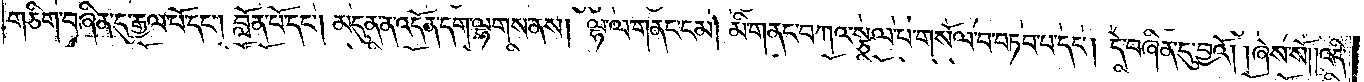གཅིག་བཞིན་དུ་རྒྱལ་པོ་དང༌། བློན་པོ་དང༌། མདུན་ན་འདོན་དག་ལྷགས་ནས། ལྷ་ལ་གནང་ངམ། མི་གནང་བཀའ་སྩལ་པ་གསོལ་བ་བཏབ་པ་དང༌། དེ་བཞིན་དུ་བྱའོ། །ཞེས་སོ། །འདི་
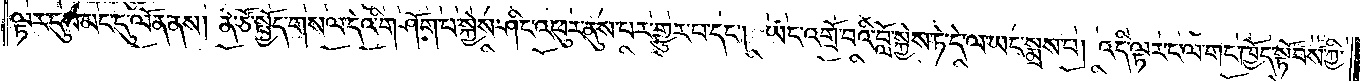ལྟར་དུས་མང་དུ་ལོན་ནས། ནེ་ཙོ་སྤྱོད་གསལ་དེའི་གཤོག་པ་སྐྱེས་ཤིང་འཕུར་ནུས་པར་གྱུར་པ་དང༌། ཡང་འགྲོ་བའི་བློ་སྐྱེས་ཏེ་དེ་ལ་ཡང་སྨྲས་པ། འདི་ལྟར་ང་ལ་གང་ཁྱོད་སྟོབས་ཀྱི་
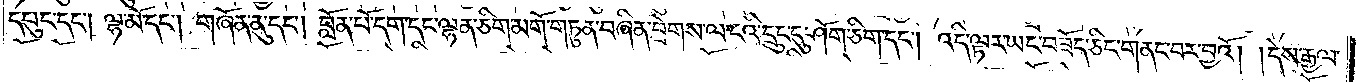དཔུང་དང༌། ལྷ་མོ་དང༌། གཞོན་ནུ་དང༌། བློན་པོ་དག་དང་ལྷན་ཅིག་མགོ་གཏུན་བཞིན་བྲེགས་ལ་ངའི་དྲུང་དུ་ཤོག་ཅིག་དང༌། འདི་ལྟར་ཡང་བཟོད་ཅིང་གནང་བར་བྱའོ། །དེས་རྒྱལ་
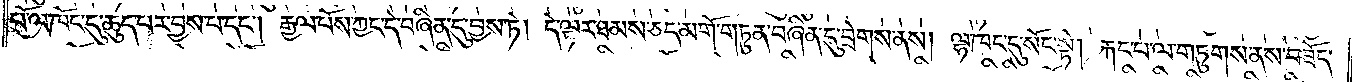པོ་ལ་ཁོང་དུ་ཆུད་པར་བྱས་པ་དང༌། རྒྱལ་པོས་ཀྱང་དེ་བཞིན་དུ་བྱས་ཏེ། དེ་ལྟར་ཐམས་ཅད་མགོ་གཏུན་བཞིན་དུ་བྲེགས་ནས། ལྷ་ཁང་དུ་སོང་སྟེ། རྐང་པ་ལ་གཏུགས་ནས་བཟོད་
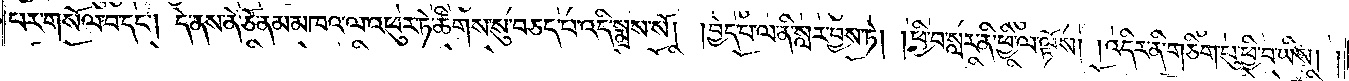པར་གསོལ་བ་དང༌། དེ་ནས་ནེ་ཙོ་ནམ་མཁའ་ལ་འཕུར་ཏེ་ཚིགས་སུ་བཅད་པ་འདི་སྨྲས་སོ། །བྱེད་པ་ལ་ནི་སླར་བྱས་ཏེ། །ཕྱི་བ་སླར་ནི་ཕྱི་ལ་ལྟོས། །འདིར་ནི་གཅིག་པུ་ཕྱི་བ་ཡིས། །
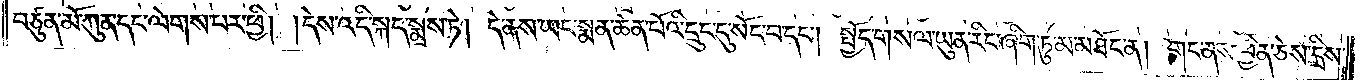བཙུན་མོ་ཀུན་དང་ལེགས་པར་ཕྱི། །དེས་འདི་སྐད་སྨྲས་ཏེ། དེ་ནས་ཡང་སྨན་ཆེན་པོའི་དྲུང་དུ་སོང་བ་དང༌། སྤྱོད་གསལ་ཡུན་རིང་ཞིག་ཏུ་མ་མཐོང་ན། གང་ནས་ཕྱིན་ཅེས་དྲིས་
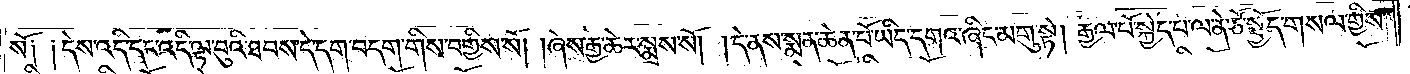སོ༑ ༑དེས་འདི་དང་འདི་ལྟ་བུའི་ཐབས་དེ་དག་བདག་གིས་བགྱིས་སོ། །ཞེས་རྒྱ་ཆེར་སྨྲས་སོ། །དེ་ནས་སྨན་ཆེན་པོ་ཡིད་དགའ་ཞིང་མགུ་སྟེ། རྒྱལ་པོ་སྐྱེད་པ་ལ་ནེ་ཙོ་སྤྱོད་གསལ་གྱིས་
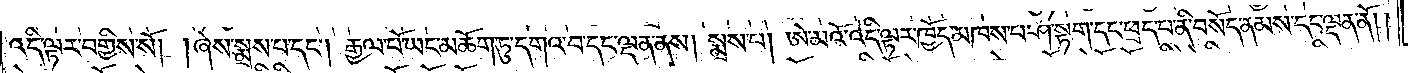འདི་ལྟར་བགྱིས་སོ། །ཞེས་སྨྲས་པ་དང༌། རྒྱལ་པོ་ཡང་མཆོག་ཏུ་དགའ་བ་དང་ལྡན་ནས། སྨྲས་པ། ཨེ་མའོ་འདི་ལྟར་ཁྱོད་མཁས་པ་ཤ་སྟག་དང་ཕྲད་པ་ནི་བསོད་ནམས་དང་ལྡན་ནོ༎
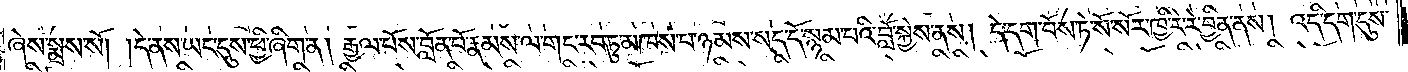ཞེས་སྨྲས་སོ། །དེ་ནས་ཡང་དུས་ཕྱི་ཞིག་ན། རྒྱལ་པོས་བློན་པོ་རྣམས་ལ་གང་རབ་ཏུ་མཁས་པ་ཉམས་སད་དོ་སྙམ་པའི་བློ་སྐྱེས་ནས། དེ་དག་བོས་ཏེ་སོ་སོར་ཁྱི་རེ་རེ་བྱིན་ནས། འདི་དག་དུས་
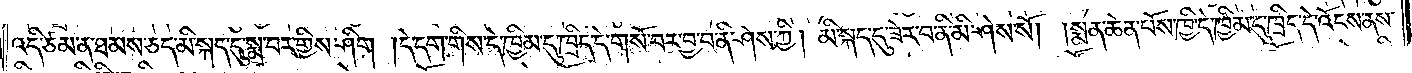འདི་ཙམ་ན་ཐམས་ཅད་མི་སྐད་དུ་སྨྲ་བར་གྱིས་ཤིག །དེ་དག་གིས་དེ་ཁྱིམ་དུ་ཁྲིད་དེ་གསོ་བར་བྱ་བ་ནི་ཤེས་ཀྱི། མི་སྐད་དུ་ཟེར་བ་ནི་མི་ཤེས་སོ། །སྨན་ཆེན་པོས་ཁྱི་དེ་ཁྱིམ་དུ་ཁྲིད་དེ་འོངས་ནས་
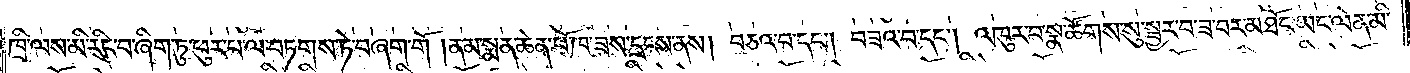ཁྲི་ལས་མི་རིང་བ་ཞིག་ཏུ་ཕུར་པ་ལ་བཏགས་ཏེ་བཞག་གོ །ནམ་སྨན་ཆེན་པོ་ཁ་ཟས་དྲངས་ནས། བཅའ་བ་དང༌། བཟའ་བ་དང༌། འཁུར་བ་སྣ་ཚོགས་སུ་སྦྱར་བ་ཟ་བར་མཐོང་ཡང་ལེན་མི་
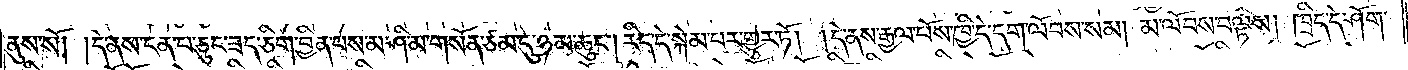ནུས་སོ། །དེ་ནས་ངན་པ་ཅུང་ཟད་ཅིག་བྱིན་པས་མ་ཤི་མ་གསོན་ཙམ་དུ་ཉམ་ཆུང༌། རིད་དེ་སྐེམ་པར་གྱུར་ཏོ། །དེ་ནས་རྒྱལ་པོས་ཁྱི་དེ་དག་ལོབས་སམ། མ་ལོབས་བལྟས། ཁྲིད་དེ་ཤོག་
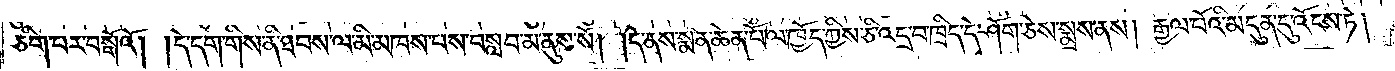ཅིག་པར་བསྒོའོ། །དེ་དག་གིས་ནི་ཐབས་ལ་མི་མཁས་པས་བསླབ་མ་ནུས་སོ། །དེ་ནས་སྨན་ཆེན་པོ་ལ་ཁྱོད་ཀྱིས་ཅི་འདྲ་བ་ཁྲིད་དེ་ཤོག་ཅེས་སྨྲས་ནས། རྒྱལ་པོའི་མདུན་དུ་འོངས་ཏེ།
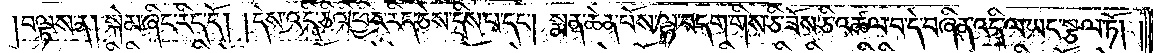བལྟས་ན། སྐེམ་ཞིང་རིད་དོ། །དེས་འདི་ཅིའི་ཕྱིར་རིད་ཅེས་དྲིས་པ་དང༌། སྨན་ཆེན་པོས་ལྷ་བདག་གིས་ཅི་ཟོས་ཅི་འཚལ་བ་དེ་བཞིན་འདི་ལ་ཡང་སྩལ་ཏོ། །
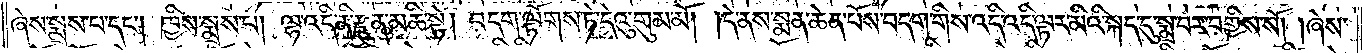ཞེས་སྨྲས་པ་དང༌། ཁྱིས་སྨྲས་པ། ལྷ་འདི་ནི་རྫུན་མཆི་སྟེ། བདག་ལྟོགས་ཏེ་དེའུ་གུམ་མོ། །དེ་ནས་སྨན་ཆེན་པོས་བདག་གིས་འདི་འདི་ལྟར་མིའི་སྐད་དུ་སྨྲ་བར་བགྱིས་སོ། །ཞེས་
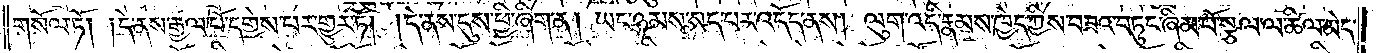གསོལ་ཏོ། །དེ་ནས་རྒྱལ་པོ་དགྱེས་པར་གྱུར་ཏོ། །དེ་ནས་དུས་ཕྱི་ཞིག་ན། ཡང་ཉམས་སད་པར་འདོད་ནས། ལུག་འདི་རྣམས་ཁྱེད་ཀྱིས་བཟའ་བཏུང་ཞིམ་པོ་སྩལ་ལ་ཚིལ་མེད་
